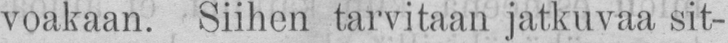voakaan. Siihen tarvitaan jatkuvaa sit-
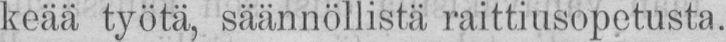keää työtä, säännöllistä raittiusopetusta.
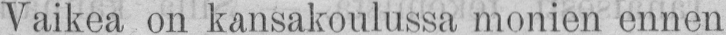Vaikea on kansakoulussa monien ennen
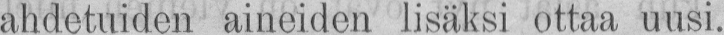ahdetuiden aineiden lisäksi ottaa uusi.
